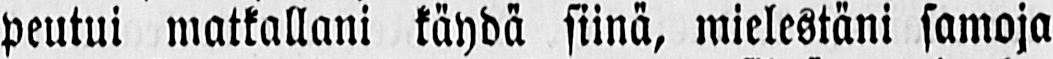peutui matkallani käydä siinä, mielestäni samoja
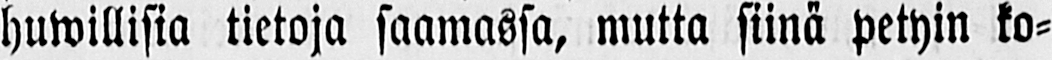huwillisia tietoja saamassa, mutta siinä petyin ko-
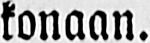konaan.
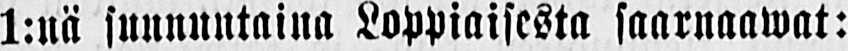1:nä sunnuntaina Loppiaisesta saarnaawat:
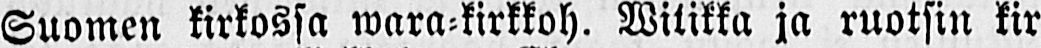Suomen kirkossa wara-kirkkoh. Witikka ja ruotsin kir.
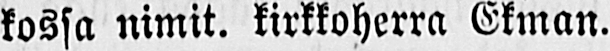kossa nimit. kirkkoherra Ekman.
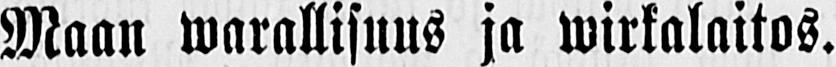Maan warallisuus ja wirkalaitos.
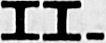II.
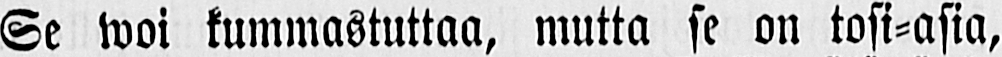Se woi kummastuttaa, mutta se on tosi-asia,
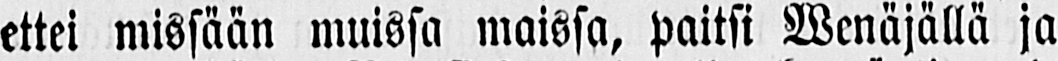ettei missään muissa maissa, paitsi Wenäjällä ja
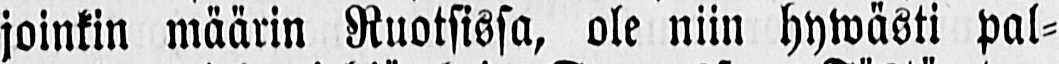joinkin määrin Ruotsissa, ole niin hywästi pal-
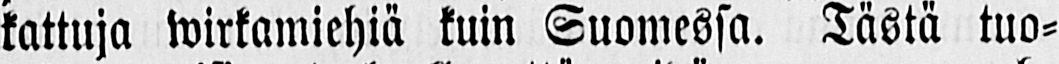kattuja wirkamiehiä kuin Suomessa. Tästä tuo-
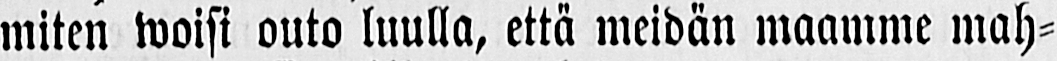miten woisi outo luulla, että meidän maamme mah-
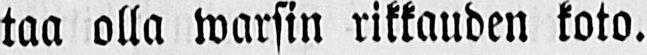taa olla warsin rikkauden koto.
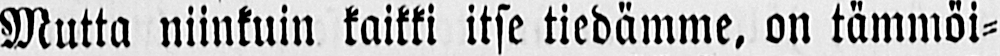Mutta niinkuin kaikki itse tiedämme, on tämmöi-
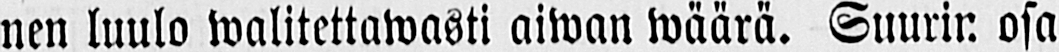nen luulo walitettawasti aiwan wäärä. Suurin osa
